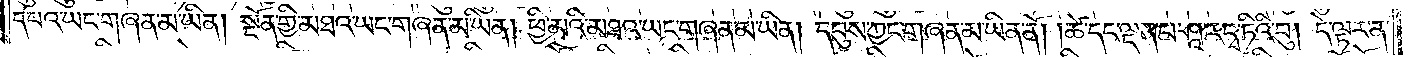དཔའ་ཡང་གཞན་མ་ཡིན། སྔོན་གྱི་མཐའ་ཡང་གཞན་མ་ཡིན། ཕྱི་མའི་མཐའ་ཡང་གཞན་མ་ཡིན། དབུས་ཀྱང་གཞན་མ་ཡིན་ནོ། །ཚེ་དང་ལྡན་པ་ཤཱ་རདྭ་ཏིའི་བུ། དེ་ལྟར་ན་
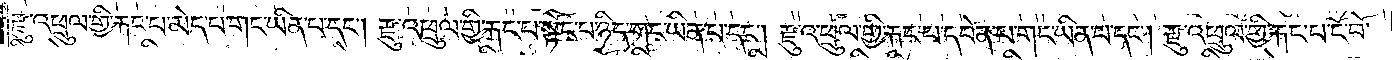རྫུ་འཕྲུལ་གྱི་རྐང་པ་མེད་པ་གང་ཡིན་པ་དང༌། རྫུ་འཕྲུལ་གྱི་རྐང་པ་སྟོང་པ་ཉིད་གང་ཡིན་པ་དང༌། རྫུ་འཕྲུལ་གྱི་རྐང་པ་དབེན་པ་གང་ཡིན་པ་དང༌། རྫུ་འཕྲུལ་གྱི་རྐང་པ་ངོ་བོ་
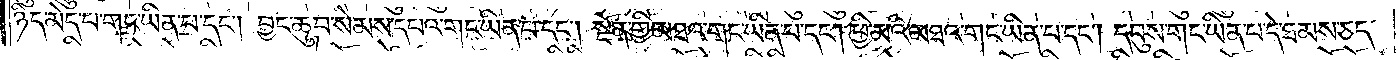ཉིད་མེད་པ་གང་ཡིན་པ་དང༌། བྱང་ཆུབ་སེམས་དཔའ་གང་ཡིན་པ་དང༌། སྔོན་གྱི་མཐའ་གང་ཡིན་པ་དང༌། ཕྱི་མའི་མཐའ་གང་ཡིན་པ་དང༌། དབུས་གང་ཡིན་པ་དེ་ཐམས་ཅད་
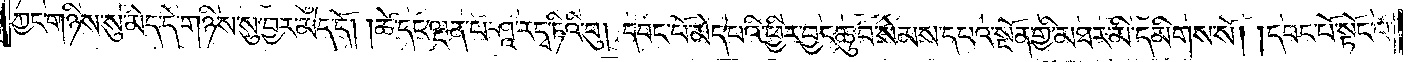ཀྱང་གཉིས་སུ་མེད་དེ་གཉིས་སུ་བྱར་མེད་དོ། །ཚེ་དང་ལྡན་པ་ཤཱ་རདྭ་ཏིའི་བུ། དབང་པོ་མེད་པའི་ཕྱིར་བྱང་ཆུབ་སེམས་དཔའ་སྔོན་གྱི་མཐར་མི་དམིགས་སོ། །དབང་པོ་སྟོང་པ་
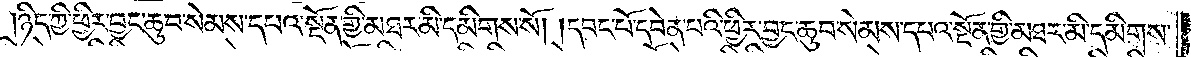ཉིད་ཀྱི་ཕྱིར་བྱང་ཆུབ་སེམས་དཔའ་སྔོན་གྱི་མཐར་མི་དམིགས་སོ། །དབང་པོ་དབེན་པའི་ཕྱིར་བྱང་ཆུབ་སེམས་དཔའ་སྔོན་གྱི་མཐར་མི་དམིགས་
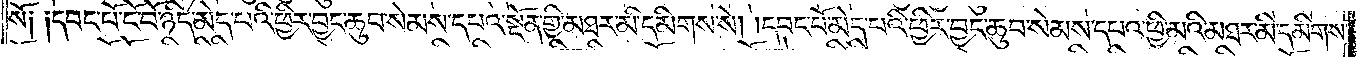སོ༑ ༑དབང་པོ་ངོ་བོ་ཉིད་མེད་པའི་ཕྱིར་བྱང་ཆུབ་སེམས་དཔའ་སྔོན་གྱི་མཐར་མི་དམིགས་སོ། །དབང་པོ་མེད་པའི་ཕྱིར་བྱང་ཆུབ་སེམས་དཔའ་ཕྱི་མའི་མཐར་མི་དམིགས་
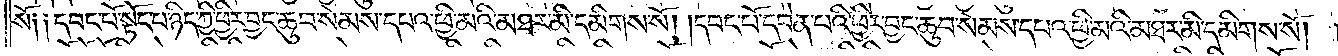སོ༑ ༑དབང་པོ་སྟོང་པ་ཉིད་ཀྱི་ཕྱིར་བྱང་ཆུབ་སེམས་དཔའ་ཕྱི་མའི་མཐར་མི་དམིགས་སོ། །དབང་པོ་དབེན་པའི་ཕྱིར་བྱང་ཆུབ་སེམས་དཔའ་ཕྱི་མའི་མཐར་མི་དམིགས་སོ། །
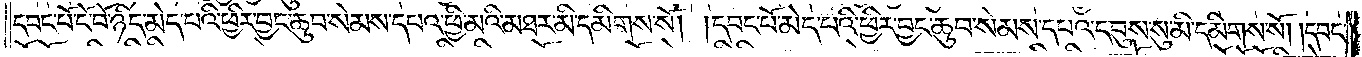དབང་པོ་ངོ་བོ་ཉིད་མེད་པའི་ཕྱིར་བྱང་ཆུབ་སེམས་དཔའ་ཕྱི་མའི་མཐར་མི་དམིགས་སོ། །དབང་པོ་མེད་པའི་ཕྱིར་བྱང་ཆུབ་སེམས་དཔའ་དབུས་སུ་མི་དམིགས་སོ། །དབང་
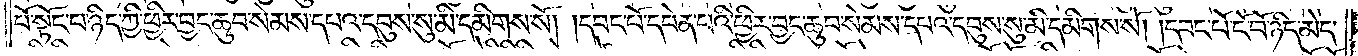པོ་སྟོང་པ་ཉིད་ཀྱི་ཕྱིར་བྱང་ཆུབ་སེམས་དཔའ་དབུས་སུ་མི་དམིགས་སོ། །དབང་པོ་དབེན་པའི་ཕྱིར་བྱང་ཆུབ་སེམས་དཔའ་དབུས་སུ་མི་དམིགས་སོ། །དབང་པོ་ངོ་བོ་ཉིད་མེད་
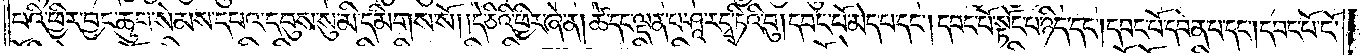པའི་ཕྱིར་བྱང་ཆུབ་སེམས་དཔའ་དབུས་སུ་མི་དམིགས་སོ། །དེ་ཅིའི་ཕྱིར་ཞེ་ན། ཚེ་དང་ལྡན་པ་ཤཱ་རདྭ་ཏིའི་བུ། དབང་པོ་མེད་པ་དང༌། དབང་པོ་སྟོང་པ་ཉིད་དང༌། དབང་པོ་དབེན་པ་དང༌། དབང་པོ་ངོ་
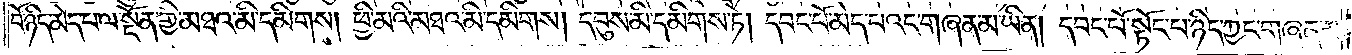བོ་ཉིད་མེད་པ་ལ་སྔོན་གྱི་མཐའ་མི་དམིགས། ཕྱི་མའི་མཐའ་མི་དམིགས། དབུས་མི་དམིགས་ཏེ། དབང་པོ་མེད་པའང་གཞན་མ་ཡིན། དབང་པོ་སྟོང་པ་ཉིད་ཀྱང་གཞན་མ་
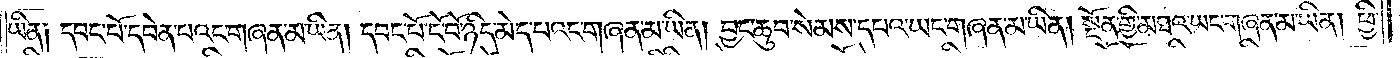ཡིན༑ དབང་པོ་དབེན་པའང་གཞན་མ་ཡིན། དབང་པོ་ངོ་བོ་ཉིད་མེད་པའང་གཞན་མ་ཡིན། བྱང་ཆུབ་སེམས་དཔའ་ཡང་གཞན་མ་ཡིན། སྔོན་གྱི་མཐའ་ཡང་གཞན་མ་ཡིན། ཕྱི་
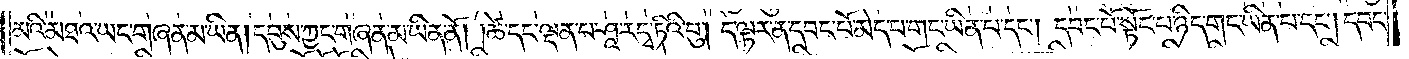མའི་མཐའ་ཡང་གཞན་མ་ཡིན། དབུས་ཀྱང་གཞན་མ་ཡིན་ནོ། །ཚེ་དང་ལྡན་པ་ཤཱ་རདྭ་ཏིའི་བུ། དེ་ལྟར་ན་དབང་པོ་མེད་པ་གང་ཡིན་པ་དང༌། དབང་པོ་སྟོང་པ་ཉིད་གང་ཡིན་པ་དང༌། དབང་
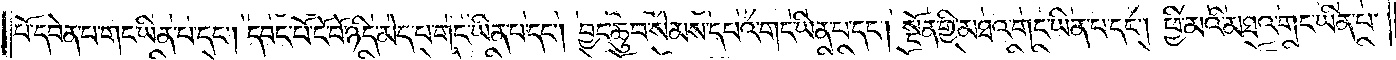པོ་དབེན་པ་གང་ཡིན་པ་དང༌། དབང་པོ་ངོ་བོ་ཉིད་མེད་པ་གང་ཡིན་པ་དང༌། བྱང་ཆུབ་སེམས་དཔའ་གང་ཡིན་པ་དང༌། སྔོན་གྱི་མཐའ་གང་ཡིན་པ་དང༌། ཕྱི་མའི་མཐའ་གང་ཡིན་པ་
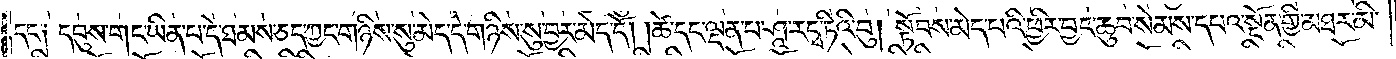དང་༑ དབུས་གང་ཡིན་པ་དེ་ཐམས་ཅད་ཀྱང་གཉིས་སུ་མེད་དེ་གཉིས་སུ་བྱར་མེད་དོ། །ཚེ་དང་ལྡན་པ་ཤཱ་རདྭ་ཏིའི་བུ། སྟོབས་མེད་པའི་ཕྱིར་བྱང་ཆུབ་སེམས་དཔའ་སྔོན་གྱི་མཐར་མི་
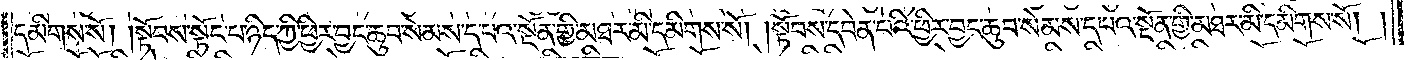དམིགས་སོ། །སྟོབས་སྟོང་པ་ཉིད་ཀྱི་ཕྱིར་བྱང་ཆུབ་སེམས་དཔའ་སྔོན་གྱི་མཐར་མི་དམིགས་སོ། །སྟོབས་དབེན་པའི་ཕྱིར་བྱང་ཆུབ་སེམས་དཔའ་སྔོན་གྱི་མཐར་མི་དམིགས་སོ། །
